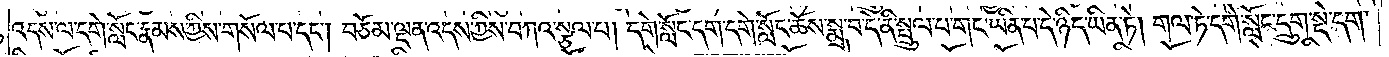འདས་ལ་དགེ་སློང་རྣམས་ཀྱིས་གསོལ་པ་དང༌། བཅོམ་ལྡན་འདས་ཀྱིས་བཀའ་སྩལ་པ། དགེ་སློང་དག་དགེ་སློང་ཆོས་སྨྲ་བ་དེ་ནི་སྤྲུལ་པ་གང་ཡིན་པ་དེ་ཉིད་ཡིན་ཏེ། གལ་ཏེ་དགེ་སློང་དྲུག་སྡེ་དག་
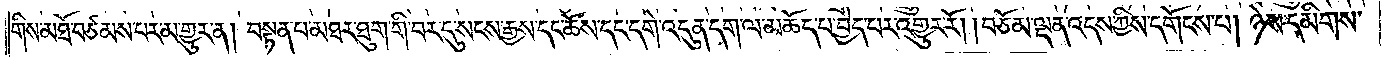གིས་མཐོ་བཙམས་པར་མ་གྱུར་ན། བསྟན་པ་མཐར་ཐུག་གི་བར་དུ་སངས་རྒྱས་དང་ཆོས་དང་དགེ་འདུན་དག་ལ་མཆོད་པ་བྱེད་པར་འགྱུར་རོ། །བཅོམ་ལྡན་འདས་ཀྱིས་དགོངས་པ། ཉེས་དམིགས་
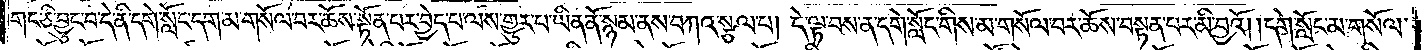གང་ཅི་བྱུང་བ་དེ་ནི་དགེ་སློང་དག་མ་གསོལ་བར་ཆོས་སྟོན་པར་བྱེད་པ་ལས་གྱུར་པ་ཡིན་ནོ་སྙམ་ནས་བཀའ་སྩལ་པ། དེ་ལྟ་བས་ན་དགེ་སློང་གིས་མ་གསོལ་བར་ཆོས་བསྟན་པར་མི་བྱའོ། །དགེ་སློང་མ་གསོལ་
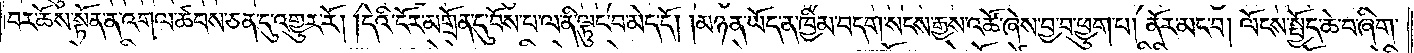བར་ཆོས་སྟོན་ན་འགལ་ཚབས་ཅན་དུ་འགྱུར་རོ། །དེའི་ངོར་མགྲོན་དུ་བོས་པ་ལ་ནི་ལྟུང་བ་མེད་དོ། །མཉན་ཡོད་ན་ཁྱིམ་བདག་སངས་རྒྱས་འཚོ་ཞེས་བྱ་བ་ཕྱུག་པ། ནོར་མང་བ། ལོངས་སྤྱོད་ཆེ་བ་ཞིག་
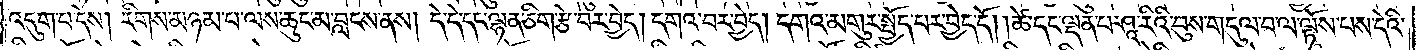འདུག་པ་དེས། རིགས་མཉམ་པ་ལས་ཆུང་མ་བླངས་ནས། དེ་དེ་དང་ལྷན་ཅིག་རྩེ་བར་བྱེད། དགའ་བར་བྱེད། དགའ་མགུར་སྤྱོད་པར་བྱེད་དོ། །ཚེ་དང་ལྡན་པ་ཤཱ་རིའི་བུས་གདུལ་བ་ལ་ལྟོས་པས་དེའི་
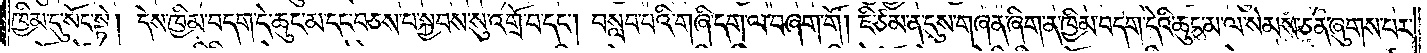ཁྱིམ་དུ་སོང་སྟེ། དེས་ཁྱིམ་བདག་དེ་ཆུང་མ་དང་བཅས་པ་སྐྱབས་སུ་འགྲོ་བ་དང༌། བསླབ་པའི་གཞི་དག་ལ་བཞག་གོ། ཇི་ཙམ་ན་དུས་གཞན་ཞིག་ན་ཁྱིམ་བདག་དེའི་ཆུང་མ་ལ་སེམས་ཅན་ཞུགས་པར་
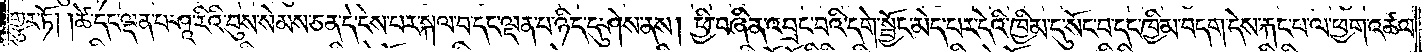གྱུར་ཏོ། །ཚེ་དང་ལྡན་པ་ཤཱ་རིའི་བུས་སེམས་ཅན་དེ་ངེས་པར་སྐལ་བ་དང་ལྡན་པ་ཉིད་དུ་ཤེས་ནས། ཕྱི་བཞིན་འབྲང་བའི་དགེ་སྦྱོང་མེད་པར་དེའི་ཁྱིམ་དུ་སོང་བ་དང་ཁྱིམ་བདག་དེས་རྐང་པ་ལ་ཕྱག་འཚལ་
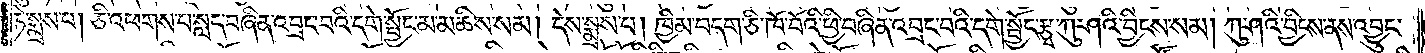ཏེ་སྨྲས་པ། ཅི་འཕགས་པ་སླད་བཞིན་འབྲང་བའི་དགེ་སྦྱོང་མ་མཆིས་སམ། དེས་སྨྲས་པ། ཁྱིམ་བདག་ཅི་ཁོ་བོའི་ཕྱི་བཞིན་འབྲང་བའི་དགེ་སྦྱོང་རྩྭ་ཀུ་ཤའི་བྱིངས་སམ། ཀུ་ཤའི་བྱིངས་ནས་འབྱུང་
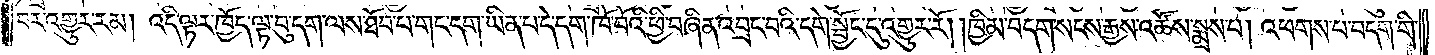བར་འགྱུར་རམ། འདི་ལྟར་ཁྱོད་ལྟ་བུ་དག་ལས་ཐོབ་པ་གང་དག་ཡིན་པ་དེ་དག་ཁོ་བོའི་ཕྱི་བཞིན་འབྲང་བའི་དགེ་སྦྱོང་དུ་འགྱུར་རོ། །ཁྱིམ་བདག་སངས་རྒྱས་འཚོས་སྨྲས་པ། འཕགས་པ་བདག་གི་
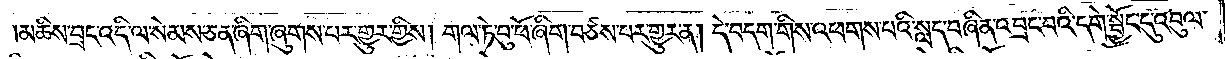མཆིས་བྲང་འདི་ལ་སེམས་ཅན་ཞིག་ཞུགས་པར་གྱུར་གྱིས། གལ་ཏེ་བུ་ཕོ་ཞིག་བཙས་པར་གྱུར་ན། དེ་བདག་གིས་འཕགས་པའི་སླད་བཞིན་འབྲང་བའི་དགེ་སྦྱོང་དུ་འབུལ་
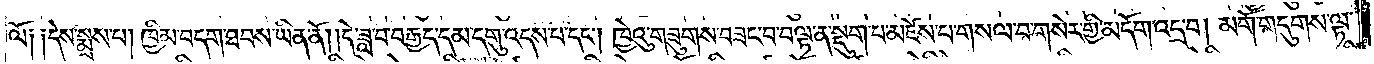ལོ༑  ༑དེས་སྨྲས་པ། ཁྱིམ་བདག་ཐབས་ཡིན་ནོ། །དེ་ཟླ་བ་བརྒྱད་དམ་དགུ་འདས་པ་དང༌། ཁྱེའུ་གཟུགས་བཟང་བ་བལྟ་ན་སྡུག་པ་མཛེས་པ་གསལ་བ་གསེར་གྱི་མདོག་འདྲ་བ། མགོ་གདུགས་ལྟ་
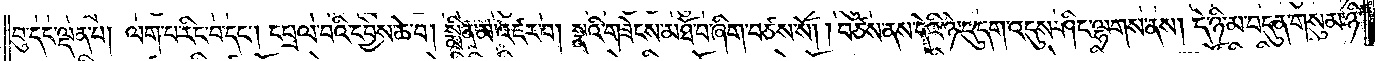བུ་དང་ལྡན་པ། ལག་པ་རིང་བ་དང༌། དཔྲལ་བའི་དབྱེས་ཆེ་བ། སྨིན་མ་འཛར་བ། སྣའི་གཟེངས་མཐོ་བ་ཞིག་བཙས་སོ། །བཙས་ནས་དེའི་ཉེ་དུ་དག་འདུས་ཤིང་ལྷགས་ནས། དེ་ཉི་མ་བདུན་གསུམ་ཉི་
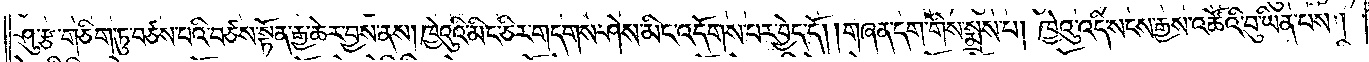ཤུ་རྩ་གཅིག་ཏུ་བཙས་པའི་བཙས་སྟོན་རྒྱ་ཆེར་བྱས་ནས། ཁྱེའུའི་མིང་ཅིར་གདགས་ཤེས་མིང་འདོགས་པར་བྱེད་དོ། །གཞན་དག་གིས་སྨྲས་པ། ཁྱེའུ་འདི་སངས་རྒྱས་འཚོའི་བུ་ཡིན་པས།
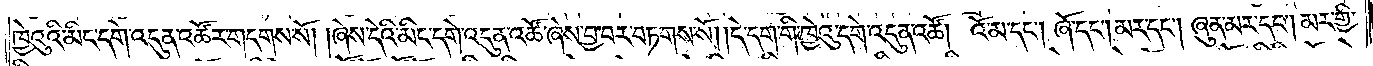ཁྱེའུའི་མིང་དགེ་འདུན་འཚོར་གདགས་སོ། །ཞེས་དེའི་མིང་དགེ་འདུན་འཚོ་ཞེས་བྱ་བར་བཏགས་སོ། །དེ་དག་གི་ཁྱེའུ་དགེ་འདུན་འཚོ། འོ་མ་དང༌། ཞོ་དང༌། མར་དང༌། ཞུན་མར་དང༌། མར་གྱི་
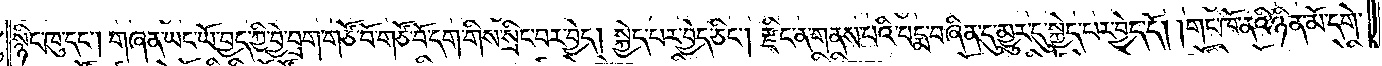སྙིང་ཁུ་དང༌། གཞན་ཡང་ཡོ་བྱད་ཀྱི་བྱེ་བྲག་གཙོ་བོ་གཙོ་བོ་དག་གིས་སྲིང་བར་བྱེད། སྐྱེད་པར་བྱེད་ཅིང༌། རྫིང་ན་གནས་པའི་པདྨ་བཞིན་དུ་མྱུར་དུ་སྐྱེད་པར་བྱེད་དོ། །གང་ཁོ་ནའི་ཉིན་མོ་དགེ་
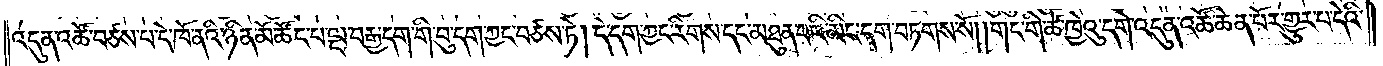འདུན་འཚོ་བཙས་པ་དེ་ཁོ་ནའི་ཉིན་མོ་ཚོང་པ་ལྔ་བརྒྱ་དག་གི་བུ་དག་ཀྱང་བཙས་ཏེ། དེ་དག་ཀྱང་རིགས་དང་མཐུན་པའི་མིང་དག་བཏགས་སོ། །གང་གི་ཚེ་ཁྱེའུ་དགེ་འདུན་འཚོ་ཆེན་པོར་གྱུར་པ་དེའི་
